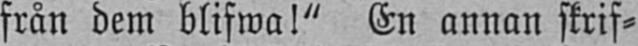från dem blifwa!" En annan skrif-
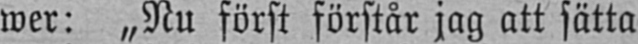wer: „Nu först förstår jag att sätta
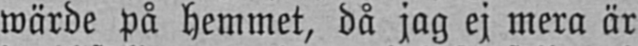wärde på hemmet, då jag ej mera är
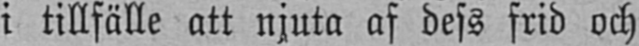i tillfälle att njuta af dess frid och
